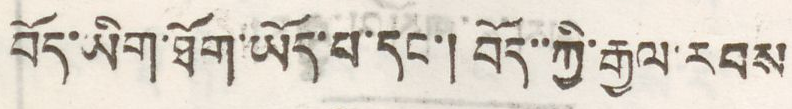བོད་ཡིག་ཐོག་ཡོད་པ་དང་། བོད་་ཀྱི་རྒྱལ་རབས
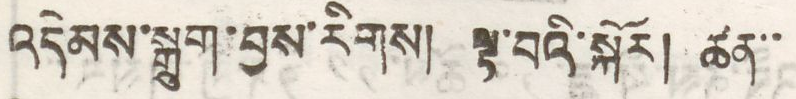འདེམས་སྒྲུག་བྱས་རིགས། ལྟ་བའི་སྐོར། ཚན་་
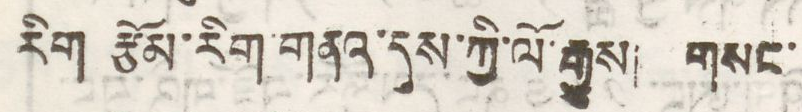རིག རྩོམ་རིག་གནའ་དུས་ཀྱི་ལོ་རྒྱུས། གསང་
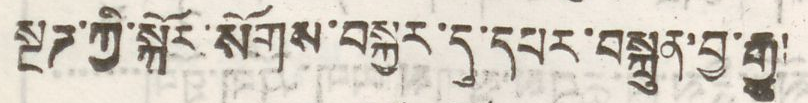སྔཌ་ཀྱི་སྐོར་སོགས་བསྐྱར་དུ་དཔར་བསྐྲུན་བྱ་རྒྱུ།
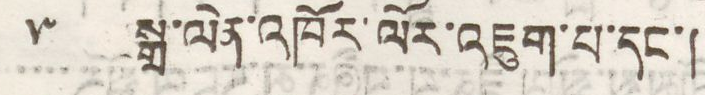༥ སྒྲ་ལེན་འཁོར་ལོར་འཇུག་པ་དང་།
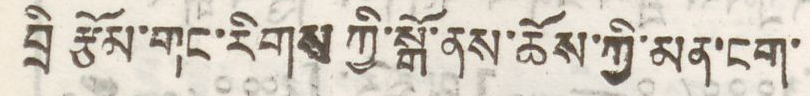བྲི རྩོམ་གང་རིགས་ཀྱི་སྒོ་ནས་ཆོས་ཀྱི་མན་ངག་
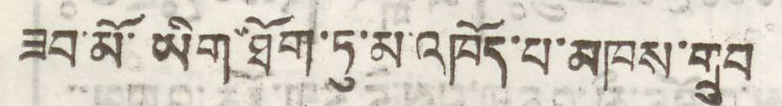ཟབ་མོ་ཡིག་ཐོག་ཏུ་མ་འཁོད་པ་མཁས་གྲུབ
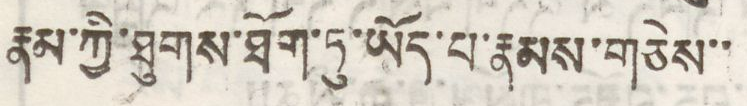རྣམ་ཀྱི་ཐུགས་ཐོག་ཏུ་ཡོད་པ་རྣམས་གཅེས་་
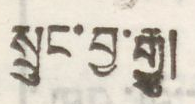སྲུང་བྱ་རྒྱུ།
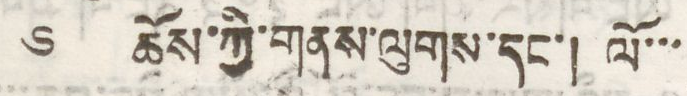༦ ཆོས་ཀྱི་གནས་ལུགས་དང་། ལོ་་་
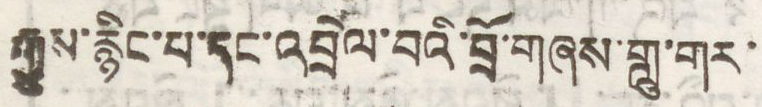རྒྱུས་རྙིང་པ་དང་འབྲེལ་བའི་བྲོ་གཞས་གླུ་གར་
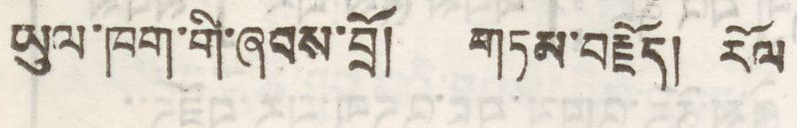ཡུལ་ཁག་གི་ཞབས་བྲོ། གཏམ་བརྗོད། རོལ
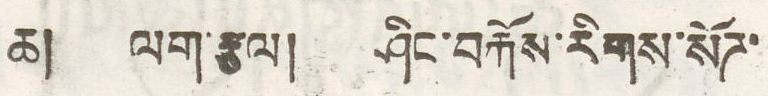ཆ། ལྒ་རྩལ། ཤིང་བརྐོས་རིགས་སོཌ་
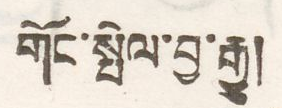གོང་སྤེལ་བྱ་རྒྱུ།
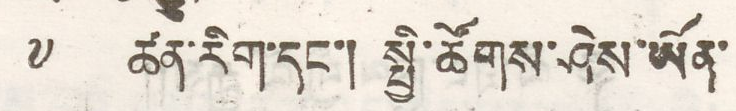༧ ཚན་རིག་དང་། སྤྱི་ཚོགས་ཤེས་ཡོན་
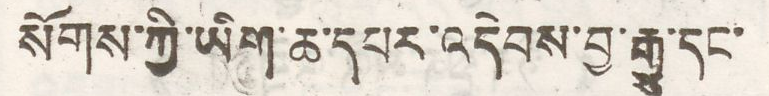སོགས་ཀྱི་ཡིག་ཆ་དཔར་འདེབས་བྱ་རྒྱུ་དང་
